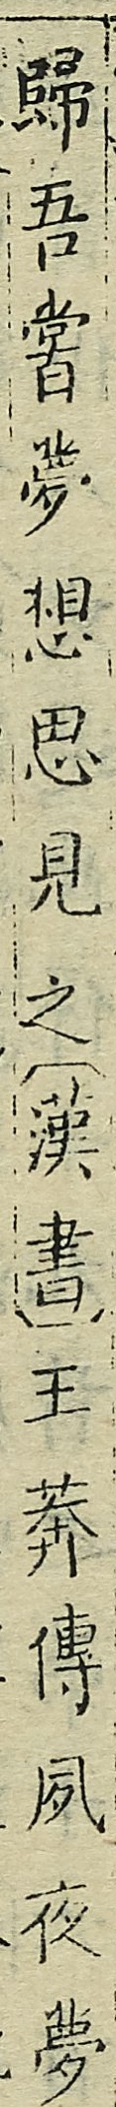歸吾嘗夢想思見之（漢書）王莽傳夙夜夢
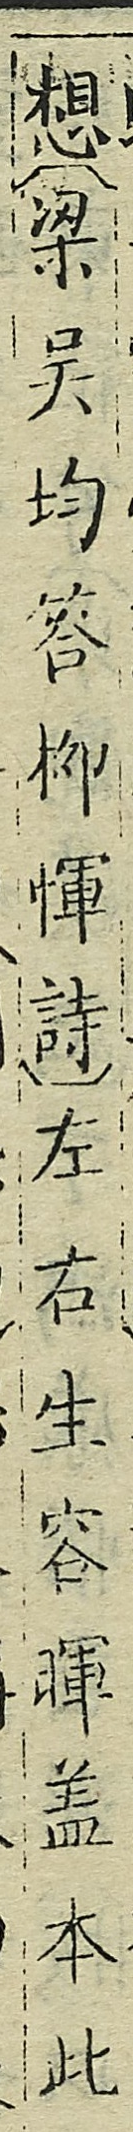想（梁吳均答柳惲詩）左右生容暉盖本此
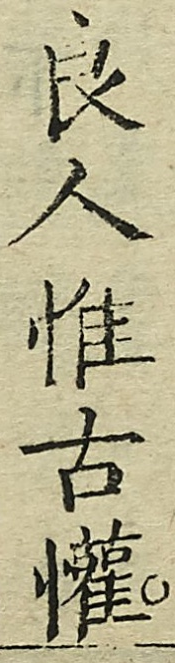良人惟古歡
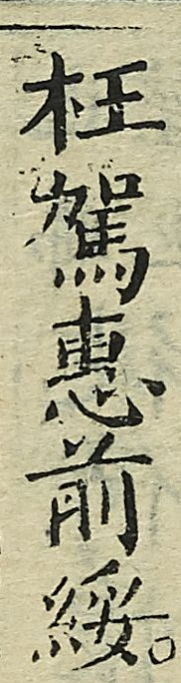枉駕惠前綏
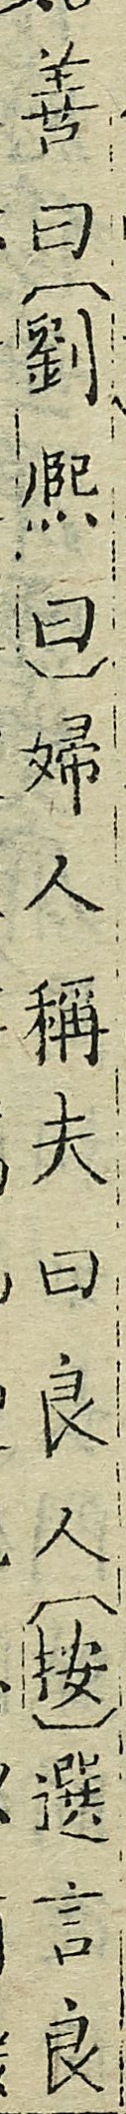善曰（劉熙曰）婦人稱夫曰良人（按）選言良
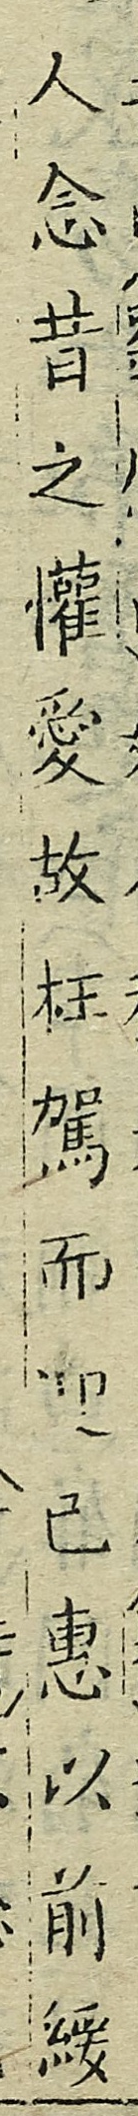人念昔之懽愛故枉駕而迎已惠以前綏
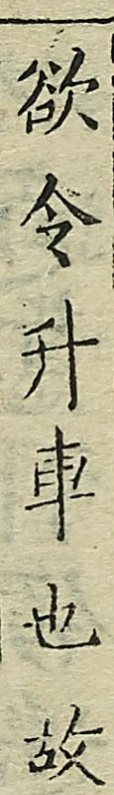欲令升車也故
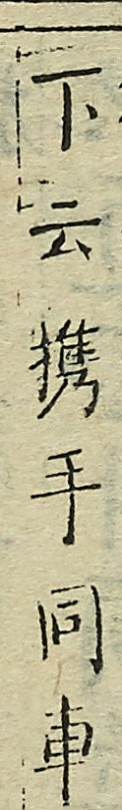下云携手同車
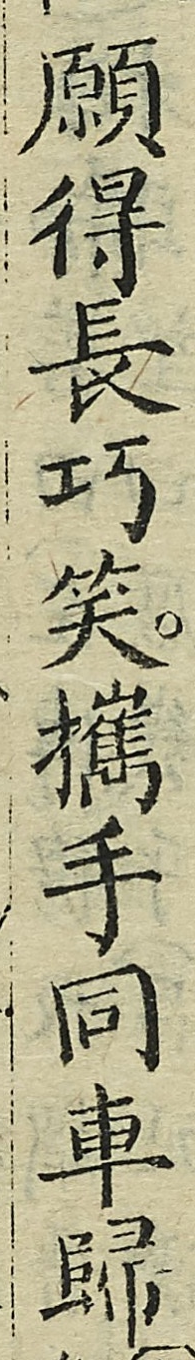願得長巧笑攜手同車歸
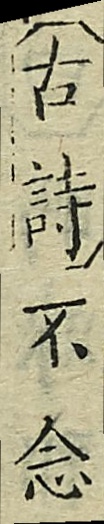（古時）不念
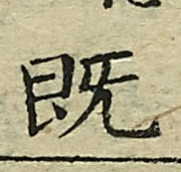既
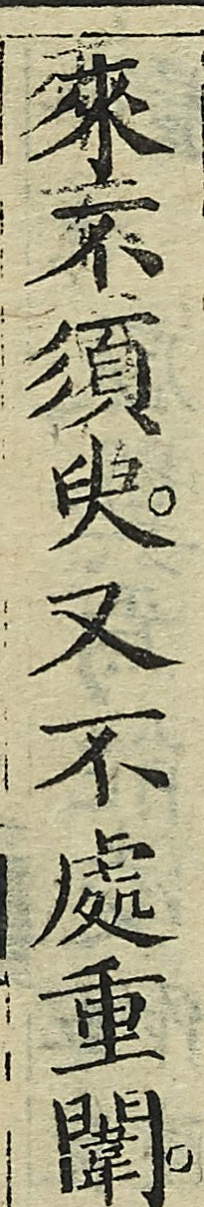來不須臾又不處重闈
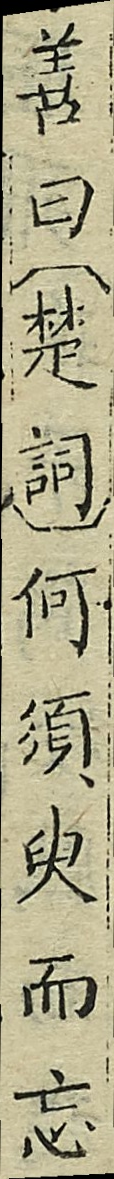善曰（楚詞）何須臾而忘
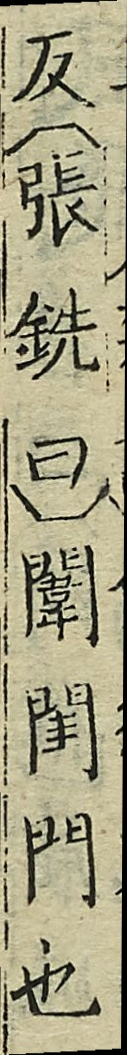闈閨門也
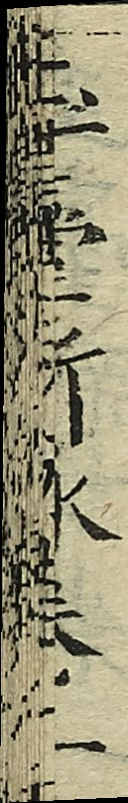玉臺新詠卷一
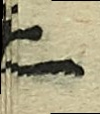二
